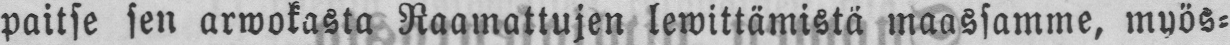paitse sen arwokasta Raamattujen lewittämistä maassamme, myös-
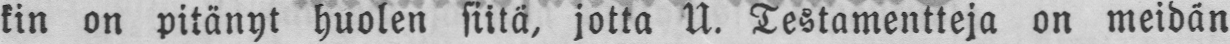kin on pitänyt huolen siitä, jotta U. Testamentteja on meidän
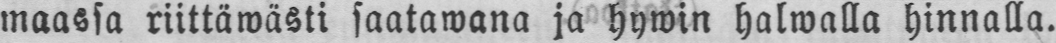maassa riittäwästi saatawana ja hywin halwalla hinnalla.
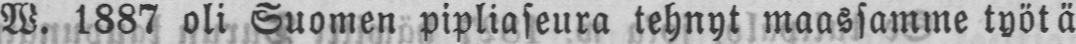W. 1887 oli Suomen pipliaseura tehnyt maassamme työtä
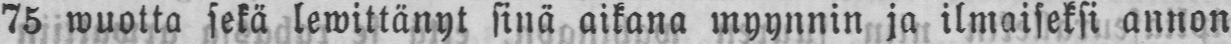75 wuotta sekä lewittänyt sinä aikana myynnin ja ilmaiseksi annon
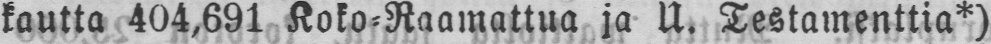kautta 404,691 Koko-Raamattua ja U. Testamenttia*)
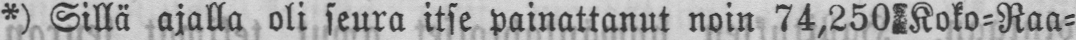*) Sillä ajalla oli seura itse painattanut noin 74,250 Koko-Raa-
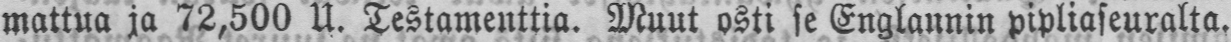mattua ja 72,500 U. Testamenttia. Muut osti se Englannin pipliaseuralta.
